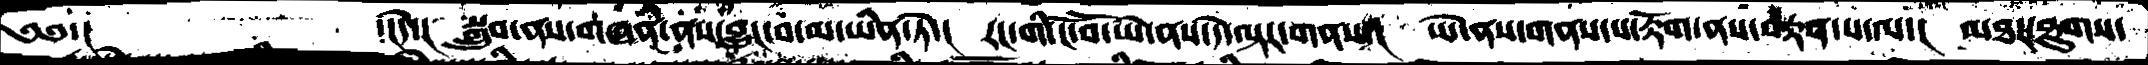༄༅་།      ་།དེ་།  སྒྲུབ་ནས་གཞན་ནས་འབྱུང་བ་མ་ཡིན་ཏེ་།  རང་གི་ངོ་བོ་ཡེ་ནས་དེ་ལྟར་གནས་།  ཡེ་ནས་གནས་པ་རྟོག་ནས་བརྟན་པ་ལ་།  མཐར་ཐུགས་
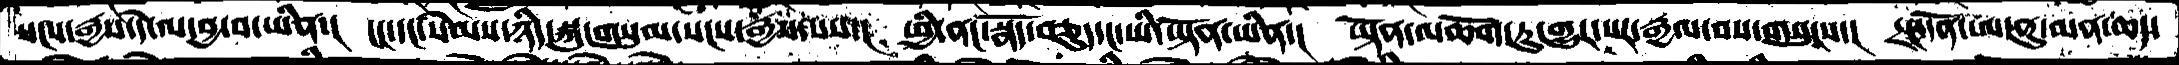སངས་རྒྱས་དེ་ལ་བྱ་བ་ཡིན་།  ངང་དང་སེམས་ཉིད་སྐུ་གསུམ་སངས་རྒྱས་པས་།  ཕྱི་ནང་སྣོད་བཅུད་ང་ཡི་ཡྟོན་ཡིན་།  ཡྟོན་མཆོག་ཏུ་གྱུར་པར་རྒྱལ་བས་གསུངས་།  དྲང་དོན་ཨ་ནུ་མན་ཆད་
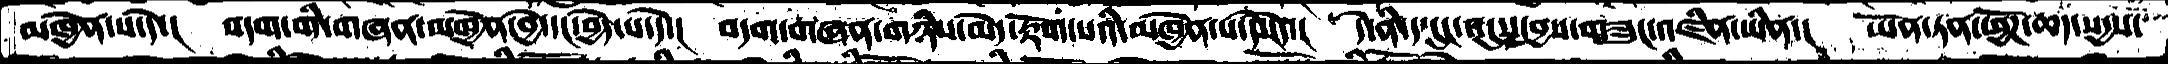མཁྱེན་པ་དེ་།  བདག་གི་གཞན་མཁྱེན་བྱེ་དང་བྱེད་པ་དེ་།  བདག་གཞན་གཉིས་མེད་རྟོག་པའི་མཁྱེན་པ་མེད་།  དེ་ནི་ད་དུང་འདུས་བྱས་གཟུང་འཛིན་ཡིན་།  ཡོན་ཏན་ཕྱོཌ་ཆད་སདྱས་
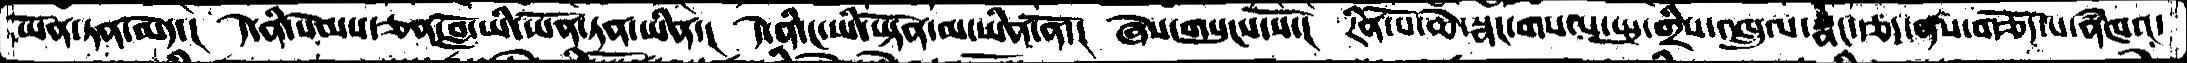ཡོན་ཏན་མེད་།  དེ་ནི་སེམས་ཅན་བློ་ཡི་ཡོན་ཏན་ཡིན་།   དེ་ནི་ང་ཡི་ཡྟོན་མ་ཡིན་ནོ་།  ཞེས་གསུངས་སོ་།  རིན་པོ་ཆེ་སྣང་གསལ་སྤུ་གྲིས་འཁྲུལ་སྣང་རྩད་ནས་གཅོད་པ་ནཾཁའ་
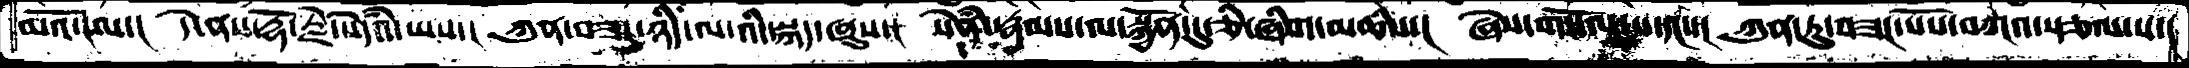མའོ་ངལ་། དེ་ནས་རྡོ་རྗེ་སེདཾའ་ཡས་། ཀུན་བཟང་ཉིད་ལ་འདི་སྐད་ཞུས་།  སེཾན་རྣམས་ལ་སྐྱོན་དུ་ཅིཞིག་མཆིས་།  ཞེས་གསོལ་པ་དང་་།  ཀུན་ཏུ་བཟང་པོས་བཀའ་སྩལ་པ་།
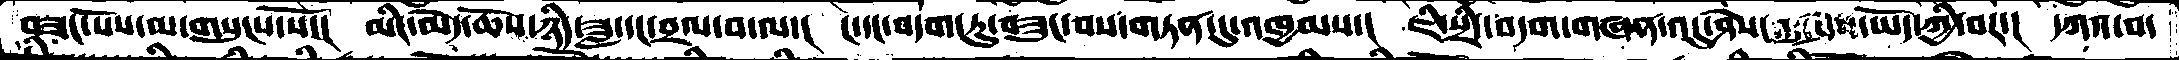བཟང་པོས་མ་གསུངས་སོ་།  མིང་མེད་ཆོས་ཉིད་ཟླ་དང་བྲལ་བ་ལ་།  ང་དང་བདག་ཏུབཟུང་བས་གཏན་དུ་འཁྱམས་།  ཇི་སྲིད་བདག་གཞན་འདུ་ཤེས་     ཡོད་ཀྱི་བར་།  དཀའ་བ་
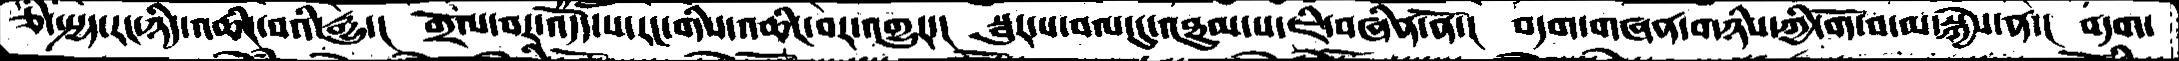ཅི་སྤྱད་རང་ཉིད་འཆིང་བའི་རྒྱུ་།  གྲོལ་བར་འདོད་པ་རང་གིས་འཆིང་བར་འགྱུར་།  སྦུར་པ་བལ་དུ་འཐུམ་པ་ཇི་བཞིན་ནོ་།  བདག་གཞན་གཉིས་ཀྱི་གོ་བ་མ་སྐྱེས་ན་།  བདག་
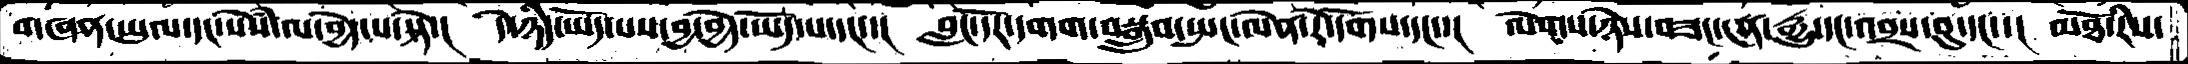གཞན་ཡུལ་དང་སེཾས་ལ་བྱེད་པ་སྟེ་།  དེ་ཉིད་ཡོད་པས་བྱ་བྱེད་ཡོད་པ་དང་་།  བླང་དོར་དགག་བསྒྲུབ་སྤང་ལེན་རེ་དོགས་དང་་།  ལེགས་ཉེས་བཟང་ངན་རྒྱུ་དང་འབྲས་བུ་དང་་།  མཐོ་རིས་
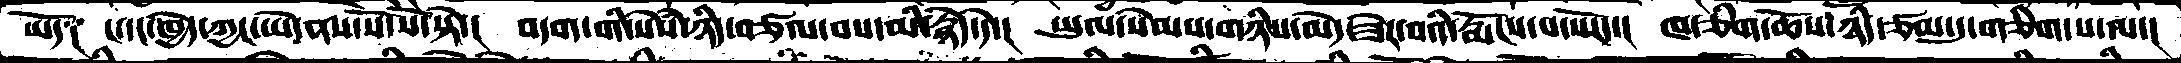ཡོད༑ །་དང་ཁྱེད་ཀྱང་ཡེ་ནས་སོ་སོ་སྟེ་།  བདག་གི་སེཾས་ཉིད་བཙལ་བས་མི་རྙེད་དེ་། ཡུལ་སེམས་གཉིས་མེད་ཟེར་བའི་རྨོངས་པ་སོང་།  ཁ་ཅིག་ཆོས་ཉིད་ཙམ་དུ་གཅིག་པ་ལ་།
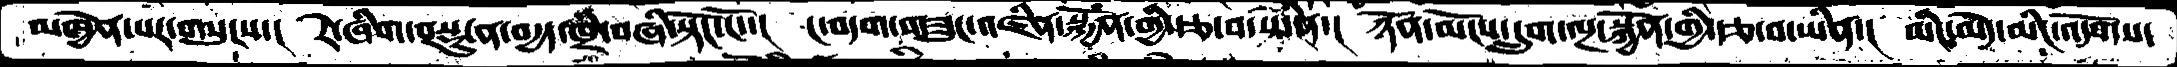མཁྱེན་པར་གསུངས་།  རེ་ཞིག་བསྡུ་ན་བདྱད་ཁྲི་བཞི་སྟོང་ངོ་་།  ང་བདག་གཟུང་འཛིན་སྐྱོན་གྱི་རྩ་བ་ཡིན་།  ཉོན་མོངས་དྲུག་ལྔ་སྐྱོན་གྱི་རྩ་བ་ཡིན་།  མིང་མེད་མིང་འདོགས་
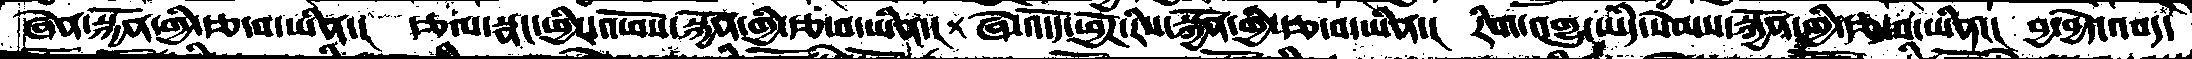ཞེན་སྐྱོན་གྱི་རྩ་བ་ཡིན་།  རྩལ་སྣང་ཕྱིར་འཕོས་སྐྱོན་གྱི་རྩ་བ་ཡིན་། ཞེ་འདོད་ཕྱོཌ་རིས་སྐྱོན་གྱི་རྩ་བ་ཡིན་།  རིག་འགྱུར་ཡིད་སེམས་སྐྱོན་གྱི་རྩ་བ་ཡིན་།  བྱ་བྱེད་འབད་
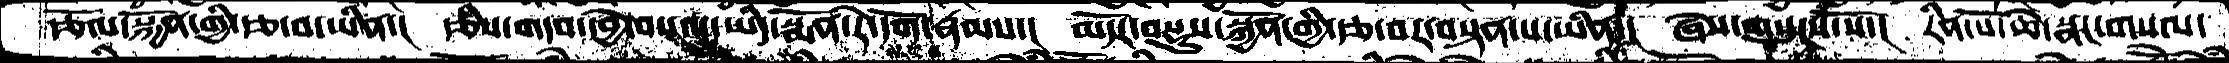རྩོལ་སྐྱོན་གྱི་རྩ་བ་ཡིན་།  རྩིས་གདབ་དབྱེ་བསལ་ཡིད་སྨོན་རེ་དོག་རྣམས་།  མདོར་བསྡུས་སྐྱོན་གྱི་རྩ་བར་བསྟན་པ་ཡིན་།  ཞེས་གསུངས་སོ་།  རིན་པོ་ཆེ་སྣང་གསལ་
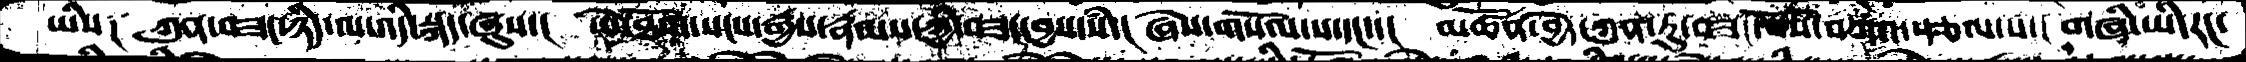ཡིས༑  ཀུན་བཟང་ཉིད་ལ་འདི་སྐད་ཞུས་། ཡེ་ཐོག་སངས་རྒྱས་རྣམས་ཀྱིབཟང་བྱས་སཾ་།  ཞེས་གསོལ་པ་དང་་།  མཚོན་བྱེད་ཀུན་ཏུ་བཟང་པོས་བཀའ་བསྩལ་པ་།  གཞི་ཡི་རང་
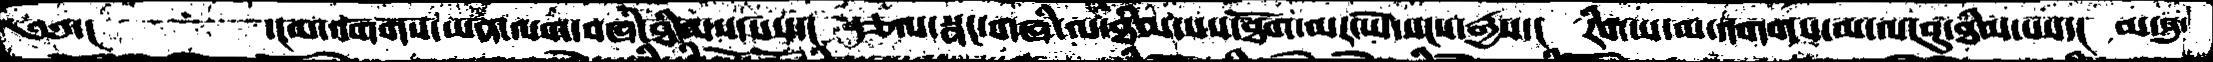༄༅་།    ་།མ་འགགས་ཡན་ལག་བཞི་ཐིམས་པས་།  རྩལ་སྣང་གཞི་ལ་ཐིམ་པས་ཐོག་མར་ཡེ་སངས་རྒྱས་།  རིག་པ་མ་འགགས་མ་ལ་བུ་ཐིམ་པས་།  མ་བུ་
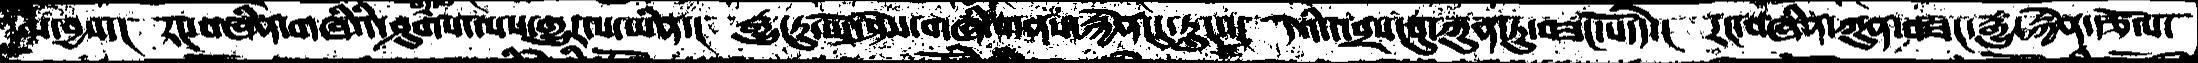མ་བྱས་།  རང་བཞིན་གཞིའི་ཤུགས་ལས་གྱུར་པ་ཡིན་།  རྒྱུ་རུ་ཡེ་ཤེས་གཞི་གནས་རྐྱེན་དུ་རླུང་་།  དེའི་འབྲས་བུ་ཀུན་ཏུ་བཟང་པོ་དེ་།  རང་བཞིན་ཀུན་བཟང་རྒྱུ་རྐྱེན་རྩོལ་
